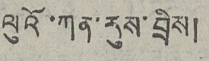ལུའོ་ཀན་རུས་བྲིས།
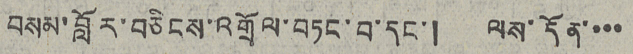བསམ་བློར་བཅིངས་འགྲོལ་བཏང་བ་དང་། ལས་དོན་་་་
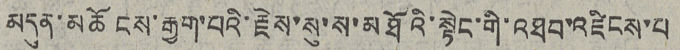མདུན་མཆོངས་རྒྱག་པའི་རྗེས་སུ་ས་མཐོའི་སྟེང་གི་འཐབ་འཛིངས་པ
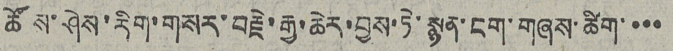ཚོས་ཤེས་རིག་གསར་བརྗེ་རྒྱ་ཆེར་བྱས་ཏེ་སྙན་ངག་གཞས་ཚིག་་་་
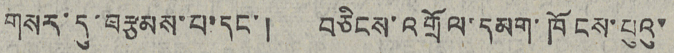གསར་དུ་བརྩམས་པ་དང་། བཅིངས་འགྲོལ་དམག་ཁོངས་པུའུ་
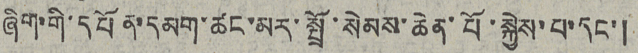ཞིག་གི་དཔོན་དམག་ཚང་མར་སྤྲོ་སེམས་ཆེན་པོ་སྐྱེས་པ་དང་།
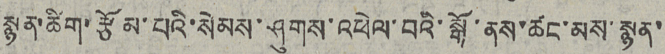སྙན་ཚིག་རྩོམ་པའི་སེམས་ཤུགས་འཕེལ་བའི་སྒོ་ནས་ཚང་མས་སྙན་
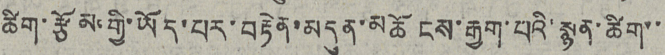ཚིག་རྩོམ་གྱི་ཡོད་པར་བརྟེན་མདུན་མཆོངས་རྒྱག་པའི་སྙན་ཚིག་་
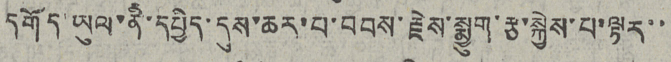དགོད་ཡུལ་ནི་དཔྱིད་དུས་ཆར་བ་བབས་རྗེས་སྨུག་རྩ་སྐྱེས་པ་ལྟར་་
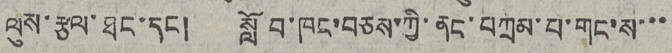ལུས་རྩལ་ཐང་དང། སློབ་ཁང་བཅས་ཀྱི་ནང་བཀྲམ་པ་གང་ས་་་
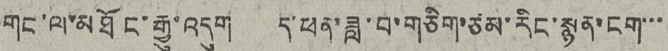གང་ལ་མཐོང་རྒྱུ་འདུག ད་ཕན་ཟླ་བ་གཅིག་ཙམ་རིང་སྙན་ངག་་་
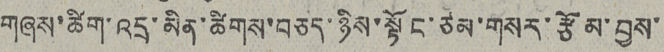གཞས་ཚིག་འདྲ་མིན་ཚིགས་བཅད་ཉིས་སྟོང་ཙམ་གསར་རྩོམ་བྱས་
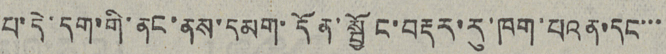པ་དེ་དག་གི་ནང་ནས་དམག་དོན་སྦྱོང་བརྡར་རུ་ཁག་པའན་དང་་་
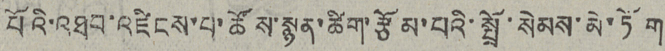པོའི་འཐབ་འཛིངས་པ་ཚོས་སྙན་ཚིག་རྩོམ་པའི་སྤྲོ་སེམས་མེ་ཏོག
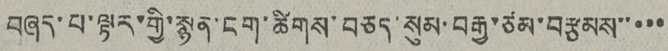བཞད་པ་ལྟར་གྱི་སྙན་ངག་ཚིགས་བཅད་སུམ་བརྒྱ་ཙམ་བརྩམས་་་་་
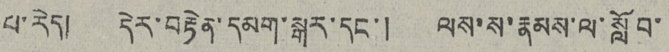པ་རེད། དེར་བརྟེན་དམག་སྒར་དང་། ལས་ས་རྣམས་ལ་སློབ་
